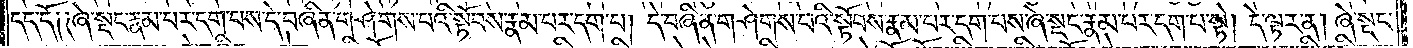དད་དོ། །ཞེ་སྡང་རྣམ་པར་དག་པས་དེ་བཞིན་གཤེགས་པའི་སྟོབས་རྣམ་པར་དག་པ། དེ་བཞིན་གཤེགས་པའི་སྟོབས་རྣམ་པར་དག་པས་ཞེ་སྡང་རྣམ་པར་དག་པ་སྟེ། དེ་ལྟར་ན། ཞེ་སྡང་
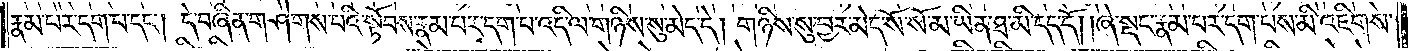རྣམ་པར་དག་པ་དང༌། དེ་བཞིན་གཤེགས་པའི་སྟོབས་རྣམ་པར་དག་པ་འདི་ལ་གཉིས་སུ་མེད་དེ། གཉིས་སུ་བྱར་མེད་སོ་སོ་མ་ཡིན་ཐ་མི་དད་དོ། །ཞེ་སྡང་རྣམ་པར་དག་པས་མི་འཇིགས་
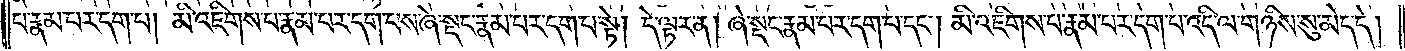པ་རྣམ་པར་དག་པ། མི་འཇིགས་པ་རྣམ་པར་དག་པས་ཞེ་སྡང་རྣམ་པར་དག་པ་སྟེ། དེ་ལྟར་ན། ཞེ་སྡང་རྣམ་པར་དག་པ་དང༌། མི་འཇིགས་པ་རྣམ་པར་དག་པ་འདི་ལ་གཉིས་སུ་མེད་དེ།
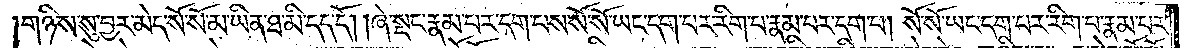གཉིས་སུ་བྱར་མེད་སོ་སོ་མ་ཡིན་ཐ་མི་དད་དོ། །ཞེ་སྡང་རྣམ་པར་དག་པས་སོ་སོ་ཡང་དག་པར་རིག་པ་རྣམ་པར་དག་པ། སོ་སོ་ཡང་དག་པར་རིག་པ་རྣམ་པར་
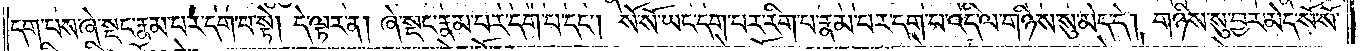དག་པས་ཞེ་སྡང་རྣམ་པར་དག་པ་སྟེ། དེ་ལྟར་ན། ཞེ་སྡང་རྣམ་པར་དག་པ་དང༌། སོ་སོ་ཡང་དག་པར་རིག་པ་རྣམ་པར་དག་པ་འདི་ལ་གཉིས་སུ་མེད་དེ། གཉིས་སུ་བྱར་མེད་སོ་སོ་
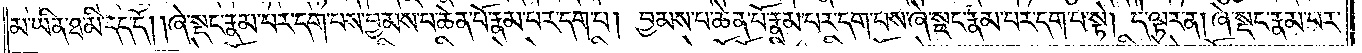མ་ཡིན་ཐ་མི་དད་དོ། །ཞེ་སྡང་རྣམ་པར་དག་པས་བྱམས་པ་ཆེན་པོ་རྣམ་པར་དག་པ། བྱམས་པ་ཆེན་པོ་རྣམ་པར་དག་པས་ཞེ་སྡང་རྣམ་པར་དག་པ་སྟེ། དེ་ལྟར་ན། ཞེ་སྡང་རྣམ་པར་
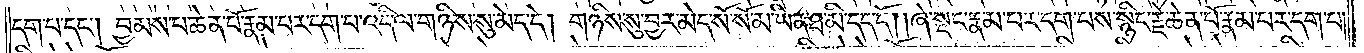དག་པ་དང༌། བྱམས་པ་ཆེན་པོ་རྣམ་པར་དག་པ་འདི་ལ་གཉིས་སུ་མེད་དེ། གཉིས་སུ་བྱར་མེད་སོ་སོ་མ་ཡིན་ཐ་མི་དད་དོ། །ཞེ་སྡང་རྣམ་པར་དག་པས་སྙིང་རྗེ་ཆེན་པོ་རྣམ་པར་དག་པ།
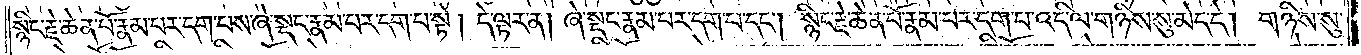སྙིང་རྗེ་ཆེན་པོ་རྣམ་པར་དག་པས་ཞེ་སྡང་རྣམ་པར་དག་པ་སྟེ། དེ་ལྟར་ན། ཞེ་སྡང་རྣམ་པར་དག་པ་དང༌། སྙིང་རྗེ་ཆེན་པོ་རྣམ་པར་དག་པ་འདི་ལ་གཉིས་སུ་མེད་དེ། གཉིས་སུ་
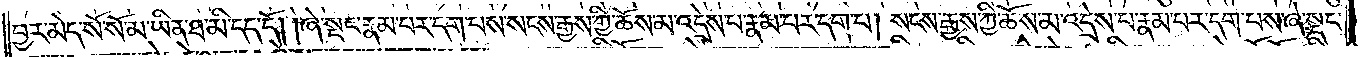བྱར་མེད་སོ་སོ་མ་ཡིན་ཐ་མི་དད་དོ། །ཞེ་སྡང་རྣམ་པར་དག་པས་སངས་རྒྱས་ཀྱི་ཆོས་མ་འདྲེས་པ་རྣམ་པར་དག་པ། སངས་རྒྱས་ཀྱི་ཆོས་མ་འདྲེས་པ་རྣམ་པར་དག་པས་ཞེ་སྡང་
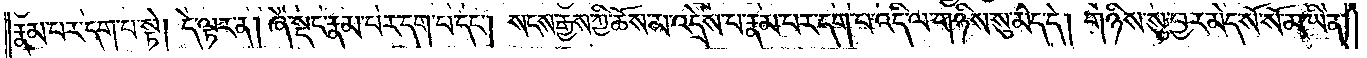རྣམ་པར་དག་པ་སྟེ། དེ་ལྟར་ན། ཞེ་སྡང་རྣམ་པར་དག་པ་དང༌། སངས་རྒྱས་ཀྱི་ཆོས་མ་འདྲེས་པ་རྣམ་པར་དག་པ་འདི་ལ་གཉིས་སུ་མེད་དེ། གཉིས་སུ་བྱར་མེད་སོ་སོ་མ་ཡིན་
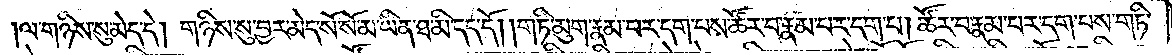ལ་གཉིས་སུ་མེད་དེ། གཉིས་སུ་བྱར་མེད་སོ་སོ་མ་ཡིན་ཐ་མི་དད་དོ། །གཏི་མུག་རྣམ་པར་དག་པས་ཚོར་བ་རྣམ་པར་དག་པ། ཚོར་བ་རྣམ་པར་དག་པས་གཏི་
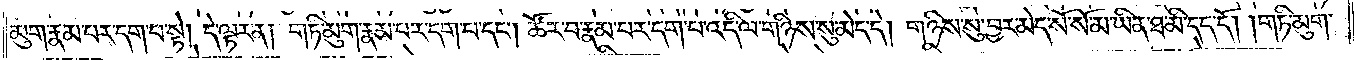མུག་རྣམ་པར་དག་པ་སྟེ། དེ་ལྟར་ན། གཏི་མུག་རྣམ་པར་དག་པ་དང༌། ཚོར་བ་རྣམ་པར་དག་པ་འདི་ལ་གཉིས་སུ་མེད་དེ། གཉིས་སུ་བྱར་མེད་སོ་སོ་མ་ཡིན་ཐ་མི་དད་དོ། །གཏི་མུག་
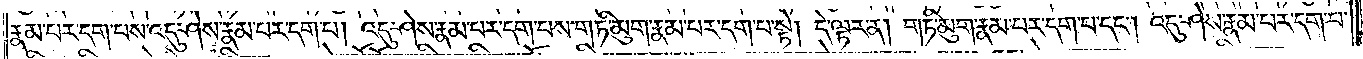རྣམ་པར་དག་པས་འདུ་ཤེས་རྣམ་པར་དག་པ། འདུ་ཤེས་རྣམ་པར་དག་པས་གཏི་མུག་རྣམ་པར་དག་པ་སྟེ། དེ་ལྟར་ན། གཏི་མུག་རྣམ་པར་དག་པ་དང༌། འདུ་ཤེས་རྣམ་པར་དག་པ་
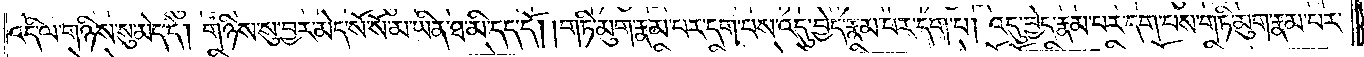འདི་ལ་གཉིས་སུ་མེད་དེ། གཉིས་སུ་བྱར་མེད་སོ་སོ་མ་ཡིན་ཐ་མི་དད་དོ། །གཏི་མུག་རྣམ་པར་དག་པས་འདུ་བྱེད་རྣམ་པར་དག་པ། འདུ་བྱེད་རྣམ་པར་དག་པས་གཏི་མུག་རྣམ་པར་
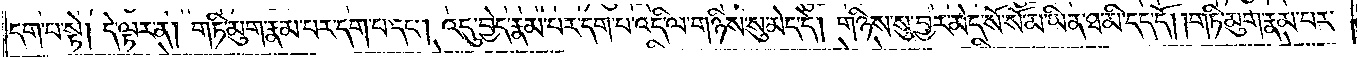དག་པ་སྟེ། དེ་ལྟར་ན། གཏི་མུག་རྣམ་པར་དག་པ་དང༌། འདུ་བྱེད་རྣམ་པར་དག་པ་འདི་ལ་གཉིས་སུ་མེད་དེ། གཉིས་སུ་བྱར་མེད་སོ་སོ་མ་ཡིན་ཐ་མི་དད་དོ། གཏི་མུག་རྣམ་པར་
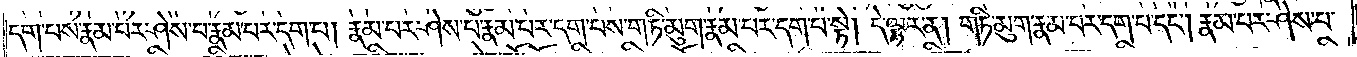དག་པས་རྣམ་པར་ཤེས་པ་རྣམ་པར་དག་པ། རྣམ་པར་ཤེས་པ་རྣམ་པར་དག་པས་གཏི་མུག་རྣམ་པར་དག་པ་སྟེ། དེ་ལྟར་ན། གཏི་མུག་རྣམ་པར་དག་པ་དང༌། རྣམ་པར་ཤེས་པ་
